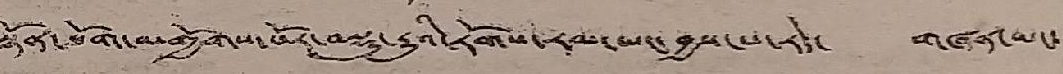སྟོནན་ཐོག་མགྱོགས་པོར་བསྡུ་རྒྱུའི་རོགས་རམ་ཡང་བྱས་པ་རེད་ གཞན་ཡང་
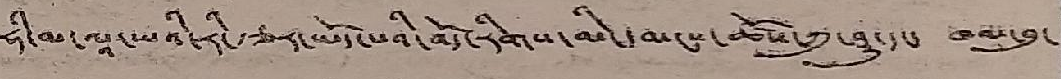ཧི་མ་ལཱའི་རི་རྩར་ཡོད་པའི་བོད་རིགས་མི་དམངས་ཚོས་ཀུ་ཤུ་དང་ ཁམ་བུ་
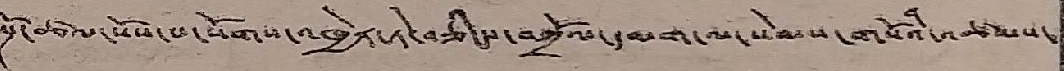སྔོ་ཚལ་སོས་པ་སོགས་འཁྱེར་ཏེ་བཅིངས་བཀྲོལ་དམག་ལ་སེམས་གསོའི་འཚམས་
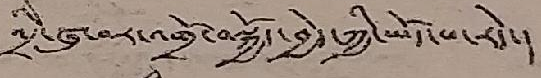འདྲི་ཞུ་བར་འགྲོ་བསྐྱོད་བྱེད་ཀྱི་ཡོད་པ་རེད་།
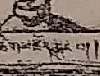ཚིག་མཛོད་ཆུང་བ་
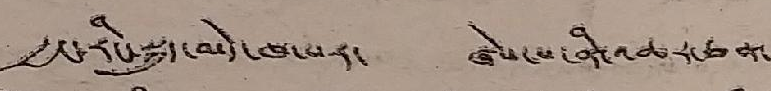རྒྱང་རིང་སྐུད་མེད་ཁ་པར་ ཞེས་པ་ནི་འཆར་ཅན་
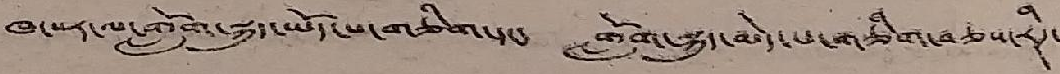ཁ་པར་ལ་གློག་སྐུད་ཡོད་པ་གཅིག་དང་ གློག་སྐུད་མེད་པ་གཅིག་བཅས་རིཊ་
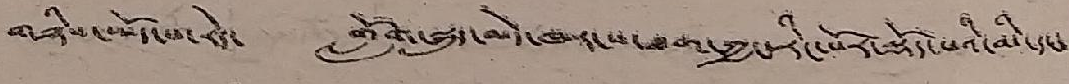གཉིས་ཡོད་པ་རེད་ གློག་སྐུད་མེད་ཁར་ས་ཐག་ཀྱང་རིང་པོར་སྡོད་པའི་མི་དང་
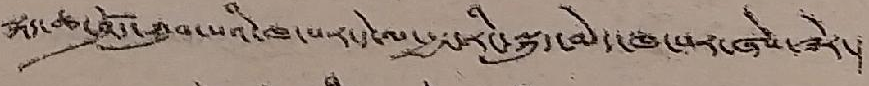སྐད་ཆ་ཤོས་ཐུབ་པའི་ཁ་པར་དེ་ལ་རྒྱང་རིང་སྐུད་མེད་ཁ་པར་ཞེས་ཟེར་།
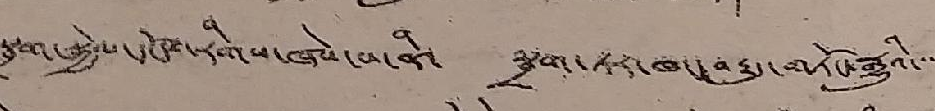སྦྲག་སྐྱེལ་དངོས་རིགས་ཞེས་པ་ནི་ སྦྲག་ཏར་ཁང་བརྒྱུད་གཏོང་རྒྱུའི་་་་
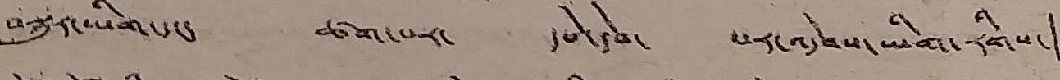བསྐུར་ཡིག་དང་ ཚག་པར་ དཔེ་དེབ་ པར་འདེབས་ཡིག་རིགས་།
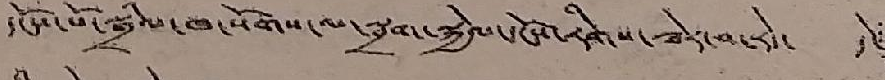དངོས་པོ་སྒྲིལ་ཁ་སོགས་ལ་སྦྲག་སྐྱེལ་དངོས་རིགས་ཟེར་བ་རེད་ དེ་
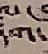དག་
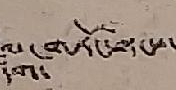ལ་གཏོང་ལྟང་
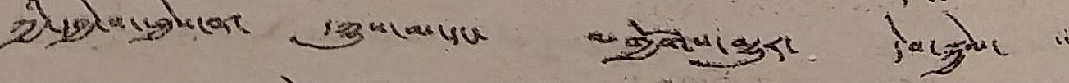ཀྱི་དབྱེ་བ་ཕྱེས་ན་ དཀྱུས་མ་དང་ མགྱོགས་མྱུར་ དེབ་སྐྱེལ་
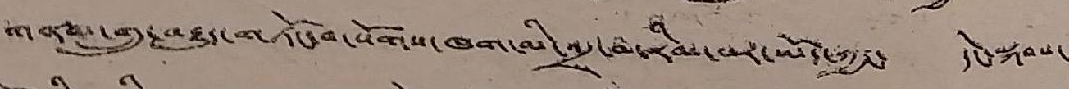གནམ་གྲུ་བརྒྱུད་གཏོང་བ་སོགས་ཁག་མི་འདྲ་བ་རིམ་པར་ཡོད་ཀྱང་ དེང་སྐབས་
